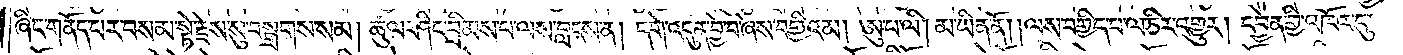ཞིང་གནོད་པར་བསམ་སྟེ་རྗེས་སུ་བསྒྲགས་སམ། ཚུལ་ཤིང་བྲིམས་པ་ལས་བླངས་ན། དགེ་འདུན་བྱེ་བ་ཞེས་བགྱིའམ། ཨུ་པ་ལི། མ་ཡིན་ནོ། །ལས་བགྱིད་པ་ལ་ཅིར་འགྱུར། དབྱེན་གྱི་འཁོར་དུ་
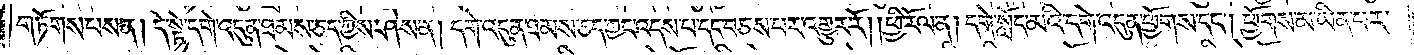གཏོགས་པས་ན། དེ་སྟེ་དགེ་འདུན་ཐམས་ཅད་ཀྱིས་ཤེས་ན། དགེ་འདུན་ཐམས་ཅད་ཀྱང་འདས་པ་དང་བཅས་པར་འགྱུར་རོ། །ཕྱི་རོལ་ན། དགེ་སློང་མའི་དགེ་འདུན་ཕྱོགས་དང༌། ཕྱོགས་མ་ཡིན་པར་
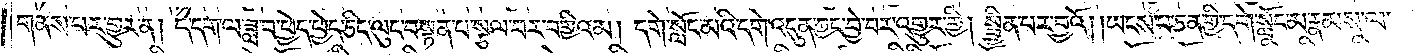གནས་པར་གྱུར་ན། དེ་དག་ལ་ཟླ་བ་ཕྱེད་ཕྱེད་ཅིང་ལུང་བསྟན་པ་སྩལ་བར་བགྱིའམ། དགེ་སློང་མའི་དགེ་འདུན་ཀྱང་བྱེ་བར་འགྱུར་གྱི། སྦྱིན་པར་བྱའོ། །ཡངས་པ་ཅན་གྱི་དགེ་སློང་མ་རྣམས་ལ་
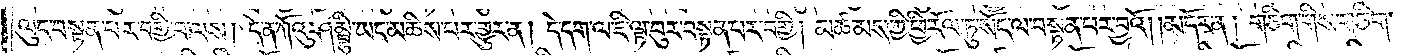ལུང་བསྟན་པར་བགྱི་བ་ལས། དེ་ན་ཀོའུ་ཤམྦྷི་ཡང་མཆིས་པར་གྱུར་ན། དེ་དག་ལ་ཇི་ལྟར་བུར་བསྟན་པར་བགྱི། མཚམས་ཀྱི་ཕྱི་རོལ་ཏུ་སོང་ལ་བསྟན་པར་བྱའོ། །མདོར་ན། གཅིག་གིས་གཅིག་
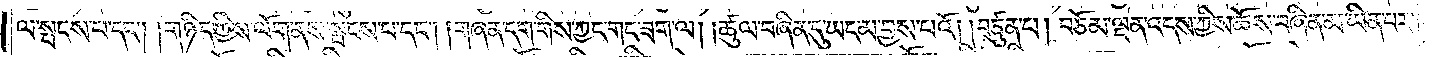ལ་སྤངས་པ་དང༌། །གཉིད་ཀྱིས་ལོག་ནས་སྤངས་པ་དང༌། །གཞན་དག་གིས་ཀྱང་གང་ཟག་ལ། །ཚུལ་བཞིན་དུ་ཡང་མ་བྱས་པའོ། །བཙུན་པ། བཅོམ་ལྡན་འདས་ཀྱིས་ཆོས་བཞིན་མ་ཡིན་པར་
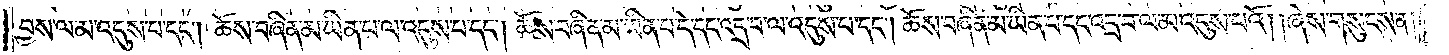བྱས་ལ་མ་འདུས་པ་དང༌། ཆོས་བཞིན་མ་ཡིན་པ་ལ་འདུས་པ་དང༌། ཆོས་བཞིན་མ་ཡིན་པ་དེ་དང་འདྲ་བ་ལ་འདུས་པ་དང༌། ཆོས་བཞིན་མ་ཡིན་པ་དང་འདྲ་བ་ལ་མ་འདུས་པའོ། །ཞེས་གསུངས་ན།
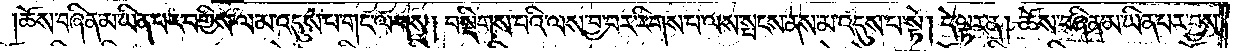ཆོས་བཞིན་མ་ཡིན་པར་བགྱིས་ལ་མ་འདུས་པ་གང་ལགས། བསྡིགས་པའི་ལས་བྱ་བར་རིགས་པ་ལས་སྤངས་ནས་མ་འདུས་པ་སྟེ། དེ་ལྟར་ན། ཆོས་བཞིན་མ་ཡིན་པར་བྱས་
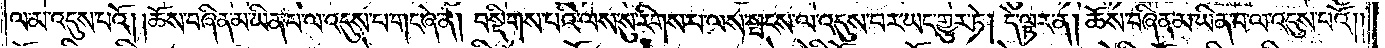ལ་མ་འདུས་པའོ། །ཆོས་བཞིན་མ་ཡིན་པ་ལ་འདུས་པ་གང་ཞེ་ན། བསྡིགས་པའི་ལས་སུ་རིགས་པ་ལས་སྤངས་ལ་འདུས་བར་ཡང་གྱུར་ཏེ། དེ་ལྟར་ན། ཆོས་བཞིན་མ་ཡིན་པ་ལ་འདུས་པའོ༎
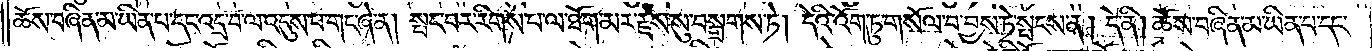ཆོས་བཞིན་མ་ཡིན་པ་དང་འདྲ་བ་ལ་འདུས་པ་གང་ཞེ་ན། སྤང་བར་རིགས་པ་ལ་ཐོག་མར་རྗེས་སུ་བསྒྲགས་ཏེ། དེའི་འོག་ཏུ་གསོལ་བ་བྱས་ཏེ་སྤངས་ན། དེ་ནི། ཆོས་བཞིན་མ་ཡིན་པ་དང་
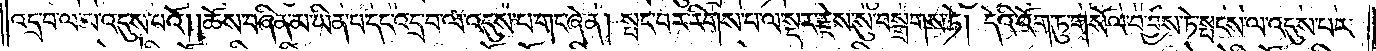འདྲ་བ་ལ་མ་འདུས་པའོ། །ཆོས་བཞིན་མ་ཡིན་པ་དང་འདྲ་བ་ལ་འདུས་པ་གང་ཞེ་ན། སྤང་བར་རིགས་པ་ལ་སྔར་རྗེས་སུ་བསྒྲགས་ཏེ། དེའི་འོག་ཏུ་གསོལ་བ་བྱས་ཏེ་སྤངས་ལ་འདུས་པར་
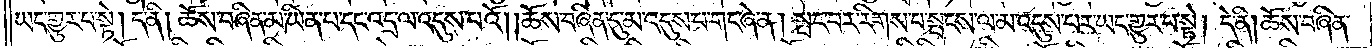ཡང་གྱུར་བ་སྟེ། དེ་ནི། ཆོས་བཞིན་མ་ཡིན་པ་དང་འདྲ་ལ་འདུས་པའོ། །ཆོས་བཞིན་དུ་མ་འདུས་པ་གང་ཞེ་ན། སྤངས་བར་རིགས་པ་སྤངས་ལ་མ་འདུས་པར་ཡང་གྱུར་པ་སྟེ། དེ་ནི། ཆོས་བཞིན་
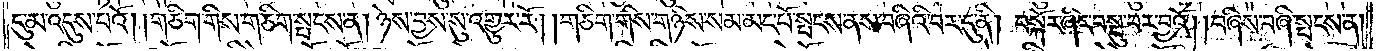དུ་མ་འདུས་པའོ། །གཅིག་གིས་གཅིག་སྤངས་ན། ཉེས་བྱས་སུ་འགྱུར་རོ། །གཅིག་གིས་གཉིས་སམ་མང་པོ་སྤངས་ནས་བཞིའི་བར་དུ་ནི། བསྐོར་ཞིང་བསྡུ་བར་བྱའོ། །བཞིས་པ་བཞི་སྤངས་ན།
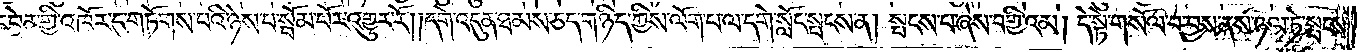དབྱེན་གྱི་འཁོར་དུ་གཏོགས་པའི་ཉེས་པ་སྦོམ་པོར་འགྱུར་རོ། །དགེ་འདུན་ཐམས་ཅད་གཉིད་ཀྱིས་ལོག་པ་ལ་དགེ་སློང་སྤངས་ན། སྤངས་པ་ཞེས་བགྱིའམ། དེ་སྟེ་གསོལ་བ་བྱས་ནས་ཉལ་ཏེ་སྤངས་
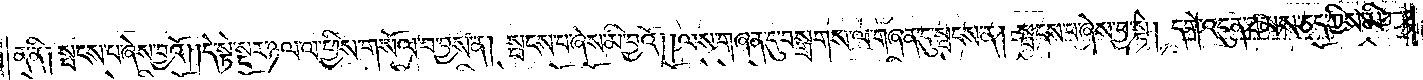ན་ནི༑ སྤངས་པ་ཞེས་བྱའོ། །དེ་སྟེ་སྔར་ཉལ་ལ་ཕྱིས་གསོལ་བ་བྱས་ན། སྤངས་པ་ཞེས་མི་བྱའོ། །ལས་གཞན་དུ་བསྒྲགས་ལ་གཞན་དུ་སྤངས་ན། སྤངས་པ་ཞེས་བྱ་སྟེ། དགེ་འདུན་ཐམས་ཅད་ཀྱིས་མི་
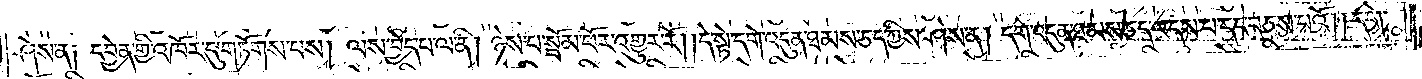ཤེས་ན། དབྱེན་གྱི་འཁོར་དུ་གཏོགས་པས། ལས་བྱེད་པ་ལ་ནི། ཉེས་པ་སྦོམ་པོར་འགྱུར་རོ། །དེ་སྟེ་དགེ་འདུན་ཐམས་ཅད་ཀྱིས་ཤེས་ན། དགེ་འདུན་ཐམས་ཅད་འདས་པ་དང་བཅས་པའོ། །དགེ་
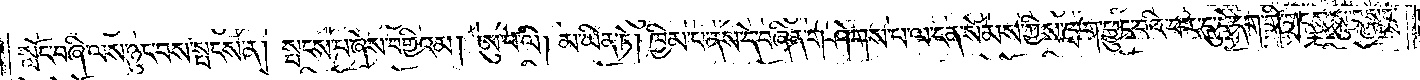སློང་བཞི་ལས་ཉུང་བས་སྤངས་ན། སྤངས་པ་ཞེས་བགྱིའམ། ཨུ་པ་ལི། མ་ཡིན་ཏེ། ཁྱིམ་པ་ནས་དེ་བཞིན་གཤེགས་པ་ལ་ངན་སེམས་ཀྱིས་ཁྲག་ཕྱུང་བའི་བར་དུ་དེ་དག་གི་གྲངས་སུ་བསྐྱངས་
